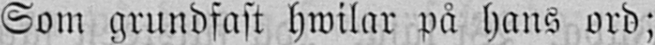Som grundfast hwilar på hans ord;
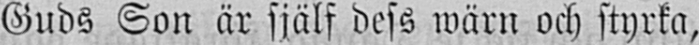Guds Son är själf dess wärn och styrka,
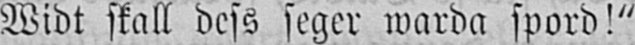Widt skall dess seger warda spord!"
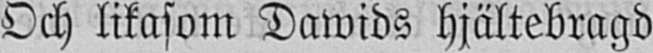Och likasom Dawids hjältebragd
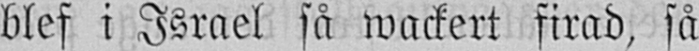blef i Israel så wackert firad, så
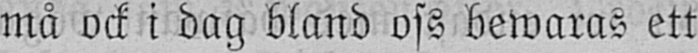må ock i dag bland oss bewaras ett
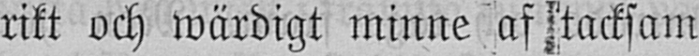rikt och wärdigt minne af tacksam
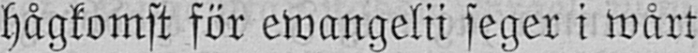hågkomst för ewangelii seger i wårt
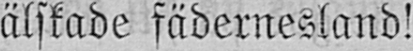älskade fädernesland!
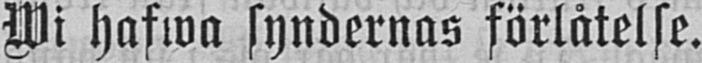Wi hafwa syndernas förlåtelse.
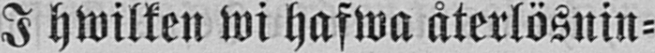I hwilken wi hafwa återlösnin-
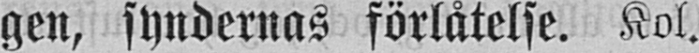gen, syndernas förlåtelse. Kol.
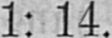1: 14.
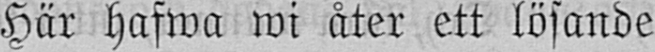Här hafwa wi åter ett lösande
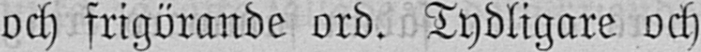och frigörande ord. Tydligare och
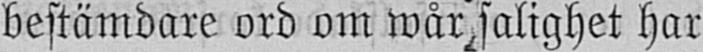bestämdare ord om wår salighet har
